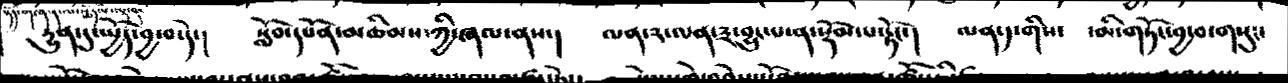དྱུན་དུ་སྤྱོད་བྱ་བ་དེ་།  སློབ་དཔོན་མཆིམས་ཀྱི་ཞལ་ནས་།  ལན་༢་ལན་༣་བྱུང་པ་ན་སྙོམ་པ་རྟོང་།  ལན་༡་གིས་  ་མི་གཏོང་བྱ་བ་གསུང་
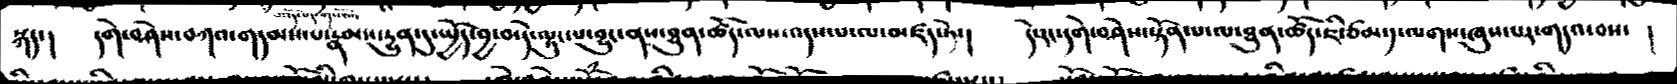སྐད་།  དགེ་བཤེས་བཀའ་གདམས་པ་རྣམས་དྱུན་དུ་སྤྱོད་བྱ་བ་དེ་ལྟུང་པ་བྱུང་ནས་ཐུན་ཚོད་ལས་འདས་པ་ལ་མཛད་ཏེ་།  དེ་རང་དགེ་བཤེས་སྟོན་པ་ལ་ཐུན་ཚོད་ཇི་ཙམ་༡་ལགས་ཞུས་པར་གདའ་བས་  །
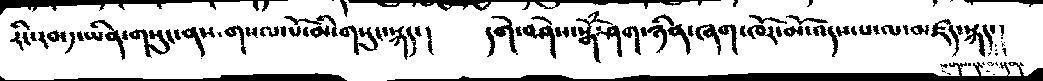རིང་རབ་༡་ཡིན་གསུང་ནས་གསལ་པོ་མི་གསུང་སྐད་།  དགེ་བཤེས་སྒོཾ་ཤག་ཉིན་ཞག་ཁོར་མོ་འདས་པ་ལ་མཛད་སྐད་།
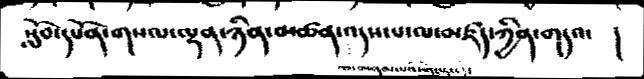སློབ་དཔོན་གསལ་ལྡན་ཉིན་མཚན་འདས་པ་ལ་མཛད་ཀྱིན་གདའ་    །
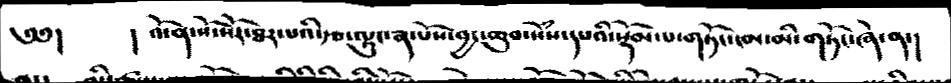༄༅།    ། འོ་ན་སོ་སོར་ཐར་པའི་རྩ་ལྟུང་ལྔ་པོས་བྱང་ཆུབ་སེཾས་དཔའི་སྡོམ་པ་གཏོང་ངམ་མི་གཏོང་ཞེ་ན་།
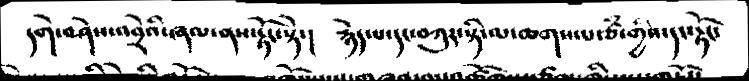དགེ་བཤེས་འབྲེའི་ཞལ་ནས་རྟོང་སྟེ་།  རྙེད་པ་དང་བཀུར་སྟི་ལ་ཆགས་པ་ཙཾ་གྱིས་དང་རྟོང་
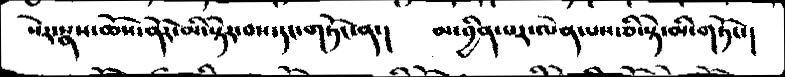སེར་སྣས་ཆོས་ནོར་མི་སྟེར་བས་དང་གཏོང་ན་།  མ་བྱིན་པར་ལེན་པས་ཅི་སྟེ་མི་གཏོང་།
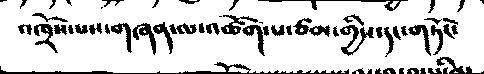འཁྲོས་པས་གཞན་ལ་འཚོག་པ་ཙམ་གྱིས་དང་གཏོང་
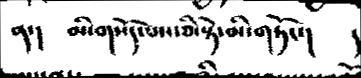ན་།  མི་གསོད་པས་ཅི་སྟེ་མི་གཏོང་།   །
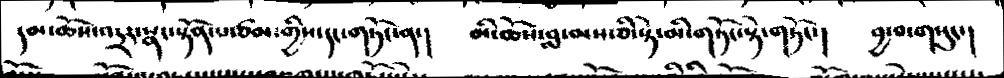དམ་ཆོས་འདྲར་སྣང་སྟོན་པ་ཙམ་གྱིས་དང་གཏོང་ན་།  མི་ཆོས་བླ་མས་ཅི་སྟེ་མི་གཏོང་སྟེ་གཏོང་།  བྱ་བ་གསུང་།
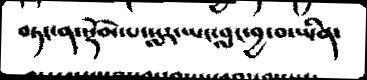བཏང་ན་སྡོམ་པ་སླར་ཡང་བླང་བྱ་བ་ཡིན་
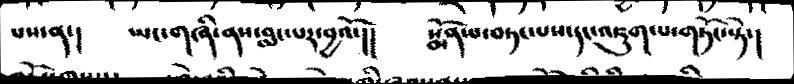པས་ན་།  ཡང་གཞི་ནས་བླང་པར་བྱའོ་།།   སྨོན་པ་བཏང་པས་དང་འཇུག་པ་གཏོང་སྟེ་།
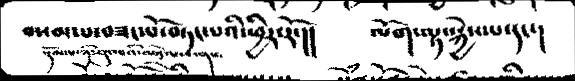བསམ་པ་བཟང་པོ་བཏང་པའི་ཕྱིར་རོ་།།  ལོག་ལྟ་སྐྱེས་པ་དང་།
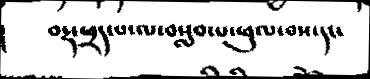བརྡ་ཕྲད་པ་ལ་བསླབ་པ་ཕུལ་བས་དང་
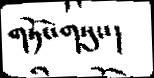གཏོང་གསུང་།
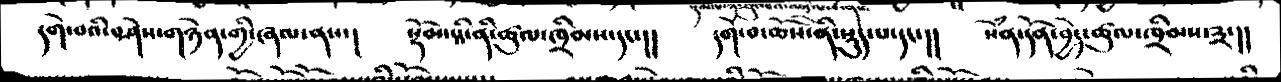དགེ་བའི་བཤེས་གཉེན་གྱི་ཞལ་ནས་།  སྡོམ་པྰི་ནི་ཚུལ་ཁྲིམས་དང་།།  དགེ་བ་ཆོས་ནི་སྡུད་པ་དང་།།   སེཾན་དོན་བྱེད་ཚུལ་ཁྲིམས་༣་།།
